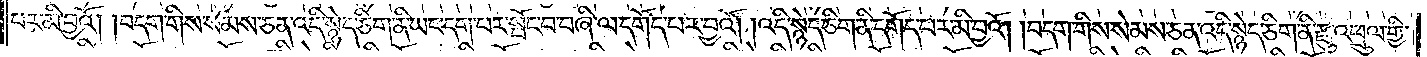པར་མི་བྱའོ། །བདག་གིས་སེམས་ཅན་འདི་སྙེད་ཅིག་ནི་ཡང་དག་པར་སྤོང་བ་བཞི་ལ་དགོད་པར་བྱའོ། །འདི་སྙེད་ཅིག་ནི་དགོད་པར་མི་བྱའོ། །བདག་གིས་སེམས་ཅན་འདི་སྙེད་ཅིག་ནི་རྫུ་འཕྲུལ་གྱི་
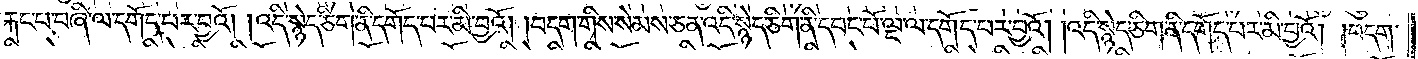རྐང་པ་བཞི་ལ་དགོད་པར་བྱའོ། །འདི་སྙེད་ཅིག་ནི་དགོད་པར་མི་བྱའོ། །བདག་གིས་སེམས་ཅན་འདི་སྙེད་ཅིག་ནི་དབང་པོ་ལྔ་ལ་དགོད་པར་བྱའོ། །འདི་སྙེད་ཅིག་ནི་དགོད་པར་མི་བྱའོ། །བདག་
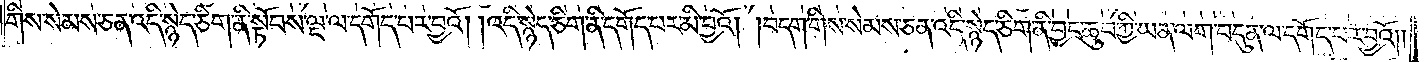གིས་སེམས་ཅན་འདི་སྙེད་ཅིག་ནི་སྟོབས་ལྔ་ལ་དགོད་པར་བྱའོ། །འདི་སྙེད་ཅིག་ནི་དགོད་པར་མི་བྱའོ། །བདག་གིས་སེམས་ཅན་འདི་སྙེད་ཅིག་ནི་བྱང་ཆུབ་ཀྱི་ཡན་ལག་བདུན་ལ་དགོད་པར་བྱའོ། །
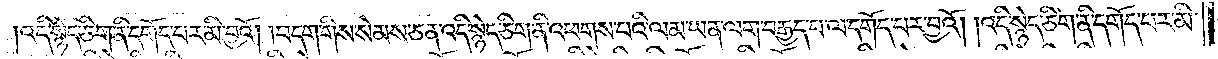འདི་སྙེད་ཅིག་ནི་དགོད་པར་མི་བྱའོ། །བདག་གིས་སེམས་ཅན་འདི་སྙེད་ཅིག་ནི་འཕགས་པའི་ལམ་ཡན་ལག་བརྒྱད་པ་ལ་དགོད་པར་བྱའོ། །འདི་སྙེད་ཅིག་ནི་དགོད་པར་མི་
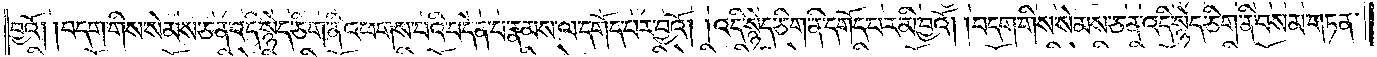བྱའོ། །བདག་གིས་སེམས་ཅན་འདི་སྙེད་ཅིག་ནི་འཕགས་པའི་བདེན་པ་རྣམས་ལ་དགོད་པར་བྱའོ། །འདི་སྙེད་ཅིག་ནི་དགོད་པར་མི་བྱའོ། །བདག་གིས་སེམས་ཅན་འདི་སྙེད་ཅིག་ནི་བསམ་གཏན་
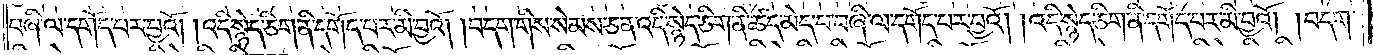བཞི་ལ་དགོད་པར་བྱའོ། །འདི་སྙེད་ཅིག་ནི་དགོད་པར་མི་བྱའོ། །བདག་གིས་སེམས་ཅན་འདི་སྙེད་ཅིག་ནི་ཚད་མེད་པ་བཞི་ལ་དགོད་པར་བྱའོ། །འདི་སྙེད་ཅིག་ནི་དགོད་པར་མི་བྱའོ། །བདག་
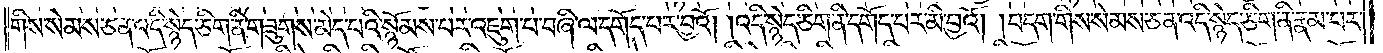གིས་སེམས་ཅན་འདི་སྙེད་ཅིག་ནི་གཟུགས་མེད་པའི་སྙོམས་པར་འཇུག་པ་བཞི་ལ་དགོད་པར་བྱའོ། །འདི་སྙེད་ཅིག་ནི་དགོད་པར་མི་བྱའོ། །བདག་གིས་སེམས་ཅན་འདི་སྙེད་ཅིག་ནི་རྣམ་པར་
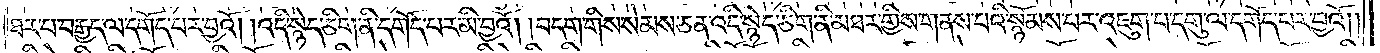ཐར་པ་བརྒྱད་ལ་དགོད་པར་བྱའོ། །འདི་སྙེད་ཅིག་ནི་དགོད་པར་མི་བྱའོ། །བདག་གིས་སེམས་ཅན་འདི་སྙེད་ཅིག་ནི་མཐར་གྱིས་གནས་པའི་སྙོམས་པར་འཇུག་པ་དགུ་ལ་དགོད་པར་བྱའོ། །
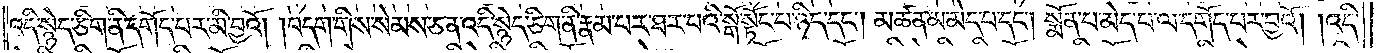འདི་སྙེད་ཅིག་ནི་དགོད་པར་མི་བྱའོ། །བདག་གིས་སེམས་ཅན་འདི་སྙེད་ཅིག་ནི་རྣམ་པར་ཐར་པའི་སྒོ་སྟོང་པ་ཉིད་དང༌། མཚན་མ་མེད་པ་དང༌། སྨོན་པ་མེད་པ་ལ་དགོད་པར་བྱའོ། །འདི་
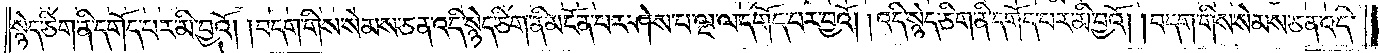སྙེད་ཅིག་ནི་དགོད་པར་མི་བྱའོ། །བདག་གིས་སེམས་ཅན་འདི་སྙེད་ཅིག་ནི་མངོན་པར་ཤེས་པ་ལྔ་ལ་དགོད་པར་བྱའོ། །འདི་སྙེད་ཅིག་ནི་དགོད་པར་མི་བྱའོ། །བདག་གིས་སེམས་ཅན་འདི་
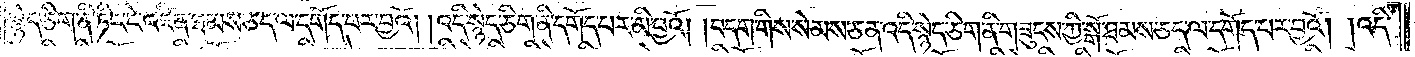སྙེད་ཅིག་ནི་ཏིང་ངེ་འཛིན་ཐམས་ཅད་ལ་དགོད་པར་བྱའོ། །འདི་སྙེད་ཅིག་ནི་དགོད་པར་མི་བྱའོ། །བདག་གིས་སེམས་ཅན་འདི་སྙེད་ཅིག་ནི་གཟུངས་ཀྱི་སྒོ་ཐམས་ཅད་ལ་དགོད་པར་བྱའོ། །འདི་
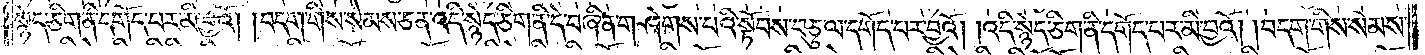སྙེད་ཅིག་ནི་དགོད་པར་མི་བྱའོ། །བདག་གིས་སེམས་ཅན་འདི་སྙེད་ཅིག་ནི་དེ་བཞིན་གཤེགས་པའི་སྟོབས་བཅུ་ལ་དགོད་པར་བྱའོ། །འདི་སྙེད་ཅིག་ནི་དགོད་པར་མི་བྱའོ། །བདག་གིས་སེམས་
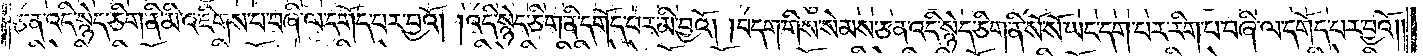ཅན་འདི་སྙེད་ཅིག་ནི་མི་འཇིགས་པ་བཞི་ལ་དགོད་པར་བྱའོ། །འདི་སྙེད་ཅིག་ནི་དགོད་པར་མི་བྱའོ། །བདག་གིས་སེམས་ཅན་འདི་སྙེད་ཅིག་ནི་སོ་སོ་ཡང་དག་པར་རིག་པ་བཞི་ལ་དགོད་པར་བྱའོ། །
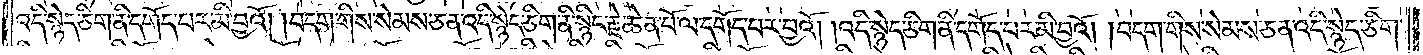འདི་སྙེད་ཅིག་ནི་དགོད་པར་མི་བྱའོ། །བདག་གིས་སེམས་ཅན་འདི་སྙེད་ཅིག་ནི་སྙིང་རྗེ་ཆེན་པོ་ལ་དགོད་པར་བྱའོ། །འདི་སྙེད་ཅིག་ནི་དགོད་པར་མི་བྱའོ། །བདག་གིས་སེམས་ཅན་འདི་སྙེད་ཅིག་
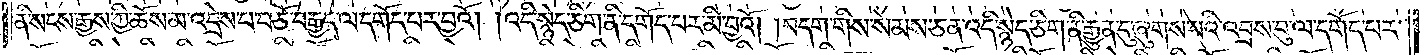ནི་སངས་རྒྱས་ཀྱི་ཆོས་མ་འདྲེས་པ་བཅོ་བརྒྱད་ལ་དགོད་པར་བྱའོ། །འདི་སྙེད་ཅིག་ནི་དགོད་པར་མི་བྱའོ། །བདག་གིས་སེམས་ཅན་འདི་སྙེད་ཅིག་ནི་རྒྱུན་དུ་ཞུགས་པའི་འབྲས་བུ་ལ་དགོད་པར་
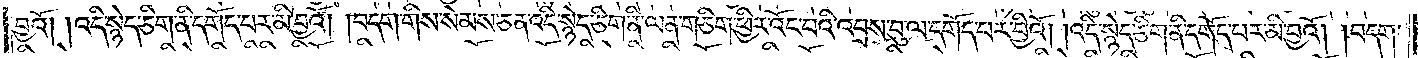བྱའོ། །འདི་སྙེད་ཅིག་ནི་དགོད་པར་མི་བྱའོ། །བདག་གིས་སེམས་ཅན་འདི་སྙེད་ཅིག་ནི་ལན་ཅིག་ཕྱིར་འོང་བའི་འབྲས་བུ་ལ་དགོད་པར་བྱའོ། །འདི་སྙེད་ཅིག་ནི་དགོད་པར་མི་བྱའོ། །བདག་
